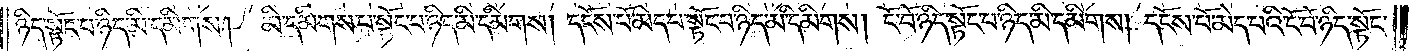ཉིད་སྟོང་པ་ཉིད་མི་དམིགས། མི་དམིགས་པ་སྟོང་པ་ཉིད་མི་དམིགས། དངོས་པོ་མེད་པ་སྟོང་པ་ཉིད་མི་དམིགས། ངོ་བོ་ཉིད་སྟོང་པ་ཉིད་མི་དམིགས། དངོས་པོ་མེད་པའི་ངོ་བོ་ཉིད་སྟོང་
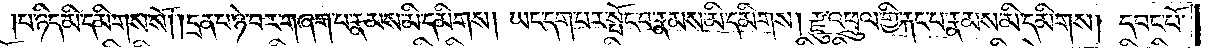པ་ཉིད་མི་དམིགས་སོ། །དྲན་པ་ཉེ་བར་བཞག་པ་རྣམས་མི་དམིགས། ཡང་དག་པར་སྤོང་བ་རྣམས་མི་དམིགས། རྫུ་འཕྲུལ་གྱི་རྐང་པ་རྣམས་མི་དམིགས། དབང་པོ་
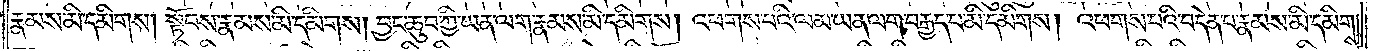རྣམས་མི་དམིགས། སྟོབས་རྣམས་མི་དམིགས། བྱང་ཆུབ་ཀྱི་ཡན་ལག་རྣམས་མི་དམིགས། འཕགས་པའི་ལམ་ཡན་ལག་བརྒྱད་པ་མི་དམིགས། འཕགས་པའི་བདེན་པ་རྣམས་མི་དམིགས།
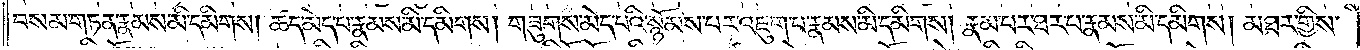བསམ་གཏན་རྣམས་མི་དམིགས། ཚད་མེད་པ་རྣམས་མི་དམིགས། གཟུགས་མེད་པའི་སྙོམས་པར་འཇུག་པ་རྣམས་མི་དམིགས། རྣམ་པར་ཐར་པ་རྣམས་མི་དམིགས། མཐར་གྱིས་
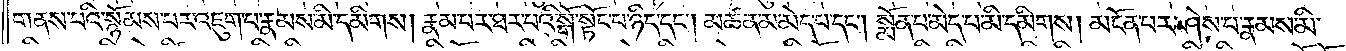གནས་པའི་སྙོམས་པར་འཇུག་པ་རྣམས་མི་དམིགས། རྣམ་པར་ཐར་པའི་སྒོ་སྟོང་པ་ཉིད་དང༌། མཚན་མ་མེད་པ་དང༌། སྨོན་པ་མེད་པ་མི་དམིགས། མངོན་པར་ཤེས་པ་རྣམས་མི་
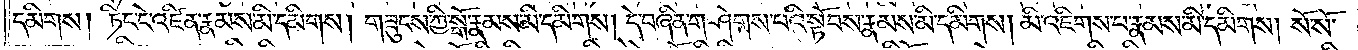དམིགས། ཏིང་ངེ་འཛིན་རྣམས་མི་དམིགས། གཟུངས་ཀྱི་སྒོ་རྣམས་མི་དམིགས། དེ་བཞིན་གཤེགས་པའི་སྟོབས་རྣམས་མི་དམིགས། མི་འཇིགས་པ་རྣམས་མི་དམིགས། སོ་སོ་
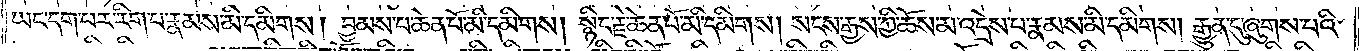ཡང་དག་པར་རིག་པ་རྣམས་མི་དམིགས། བྱམས་པ་ཆེན་པོ་མི་དམིགས། སྙིང་རྗེ་ཆེན་པོ་མི་དམིགས། སངས་རྒྱས་ཀྱི་ཆོས་མ་འདྲེས་པ་རྣམས་མི་དམིགས། རྒྱུན་དུ་ཞུགས་པའི་
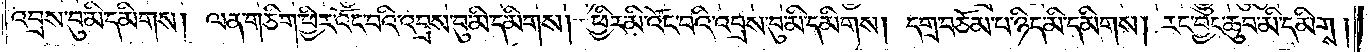འབྲས་བུ་མི་དམིགས། ལན་གཅིག་ཕྱིར་འོང་བའི་འབྲས་བུ་མི་དམིགས། ཕྱིར་མི་འོང་བའི་འབྲས་བུ་མི་དམིགས། དགྲ་བཅོམ་པ་ཉིད་མི་དམིགས། རང་བྱང་ཆུབ་མི་དམིགས།
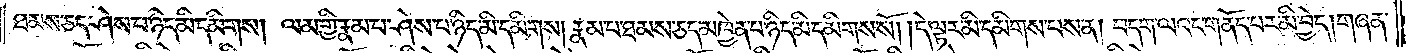ཐམས་ཅད་ཤེས་པ་ཉིད་མི་དམིགས། ལམ་གྱི་རྣམ་པ་ཤེས་པ་ཉིད་མི་དམིགས། རྣམ་པ་ཐམས་ཅད་མཁྱེན་པ་ཉིད་མི་དམིགས་སོ། །དེ་ལྟར་མི་དམིགས་པས་ན། བདག་ལའང་གནོད་པར་མི་བྱེད། གཞན་
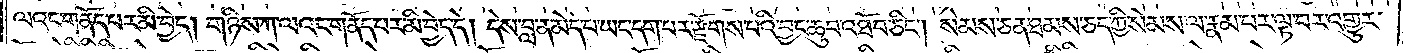ལའང་གནོད་པར་མི་བྱེད། གཉིས་ཀ་ལའང་གནོད་པར་མི་བྱེད་དེ། དེས་བླ་ན་མེད་པ་ཡང་དག་པར་རྫོགས་པའི་བྱང་ཆུབ་འཐོབ་ཅིང༌། སེམས་ཅན་ཐམས་ཅད་ཀྱི་སེམས་ལ་རྣམ་པར་ལྟ་བར་འགྱུར་
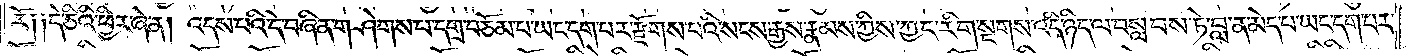རོ༑ ༑དེ་ཅིའི་ཕྱིར་ཞེ་ན། འདས་པའི་དེ་བཞིན་གཤེགས་པ་དགྲ་བཅོམ་པ་ཡང་དག་པར་རྫོགས་པའི་སངས་རྒྱས་རྣམས་ཀྱིས་ཀྱང་རིག་སྔགས་འདི་ཉིད་ལ་བསླབས་ཏེ་བླ་ན་མེད་པ་ཡང་དག་པར་
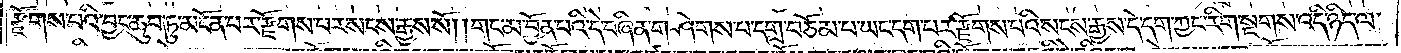རྫོགས་པའི་བྱང་ཆུབ་ཏུ་མངོན་པར་རྫོགས་པར་སངས་རྒྱས་སོ། །གང་མ་བྱོན་པའི་དེ་བཞིན་གཤེགས་པ་དགྲ་བཅོམ་པ་ཡང་དག་པར་རྫོགས་པའི་སངས་རྒྱས་དེ་དག་ཀྱང་རིག་སྔགས་འདི་ཉིད་ལ་
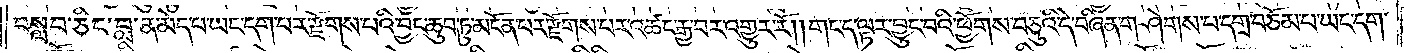བསླབ་ཅིང་བླ་ན་མེད་པ་ཡང་དག་པར་རྫོགས་པའི་བྱང་ཆུབ་ཏུ་མངོན་པར་རྫོགས་པར་འཚང་རྒྱ་བར་འགྱུར་རོ། །གང་ད་ལྟར་བྱུང་བའི་ཕྱོགས་བཅུའི་དེ་བཞིན་གཤེགས་པ་དགྲ་བཅོམ་པ་ཡང་དག་
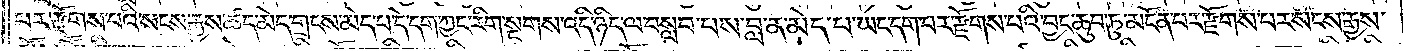པར་རྫོགས་པའི་སངས་རྒྱས་ཚད་མེད་གྲངས་མེད་པ་དེ་དག་ཀྱང་རིག་སྔགས་འདི་ཉིད་ལ་བསླབ་པས་བླ་ན་མེད་པ་ཡང་དག་པར་རྫོགས་པའི་བྱང་ཆུབ་ཏུ་མངོན་པར་རྫོགས་པར་སངས་རྒྱས་
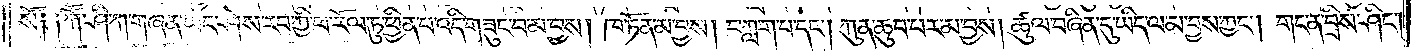སོ༑ ༑ཀཽ་ཤི་ཀ་གཞན་ཡང་ཤེས་རབ་ཀྱི་ཕ་རོལ་ཏུ་ཕྱིན་པ་འདི་གཟུང་བ་མ་བྱས། ཁ་ཏོན་མ་བྱས། བཀླག་པ་དང༌། ཀུན་ཆུབ་པར་མ་བྱས། ཚུལ་བཞིན་དུ་ཡིད་ལ་མ་བྱས་ཀྱང༌། གང་ན་བྲིས་ཤིང༌།
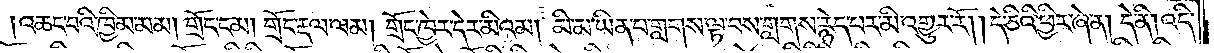འཆང་བའི་ཁྱིམ་མམ། གྲོང་ངམ། གྲོང་རྡལ་ལམ། གྲོང་ཁྱེར་དེར་མི་འམ། མི་མ་ཡིན་པ་གླགས་ལྟ་བས་གླགས་སྙེད་པར་མི་འགྱུར་རོ། །དེ་ཅིའི་ཕྱིར་ཞེ་ན། དེ་ནི། འདི་
